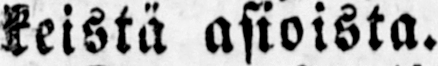keistä asioista.
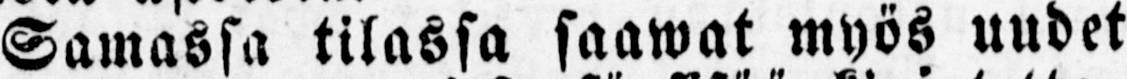Samassa tilassa saawat myös uudet
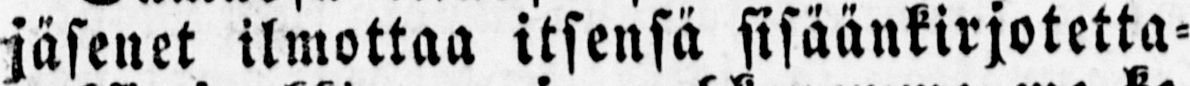jäsenet ilmottaa itsensä sisäänkirjotetta-
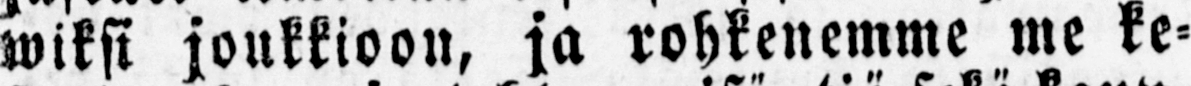wiksi joukkioon, ja rohkenemme me ke-
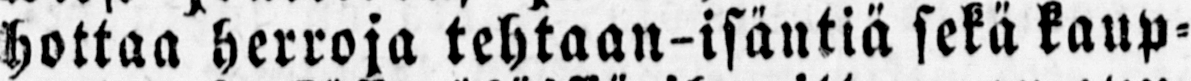hottaa herroja tehtaan-isäntiä sekä kaup-
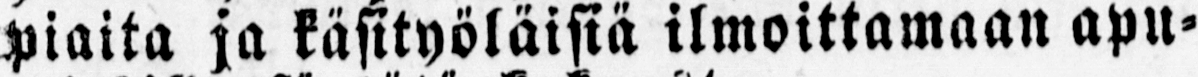piaita ja käsityöläisiä ilmoittamaan apu-
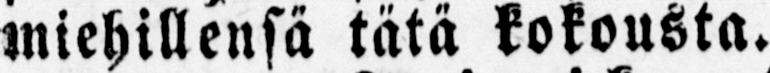miehillensä tätä kokousta.
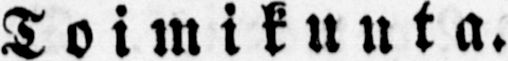Toimikunta.
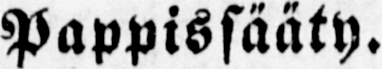Pappissääty.
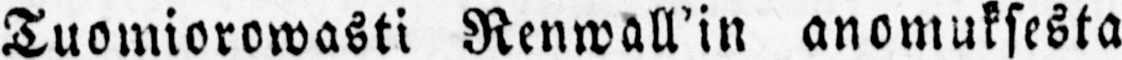Tuomiorowasti Renwall’in anomuksesta
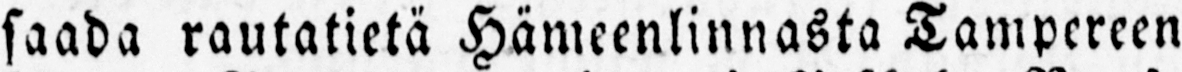saada rautatietä Hämeenlinnasta Tampereen
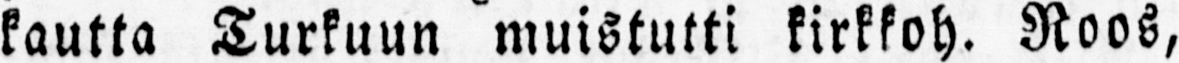kautta Turkuun muistutti kirkkoh. Roos,
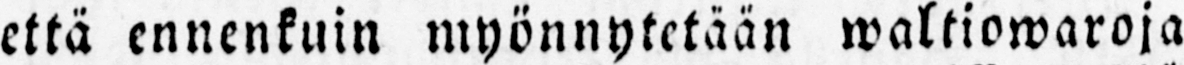että ennenkuin myönnytetään waltiowaroja
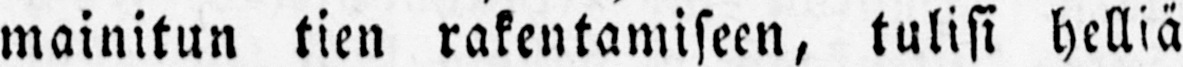mainitun tien rakentamiseen, tulisi helliä
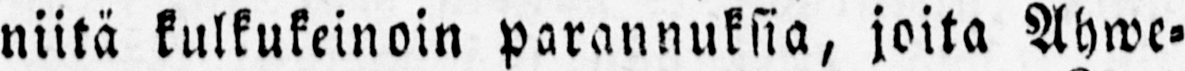niitä kulkukeinoin parannuksia, joita Ahwe-
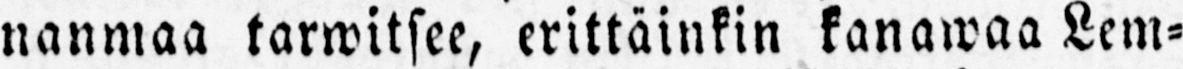nanmaa tarwitsee, erittäinkin kanawaa Lem-
